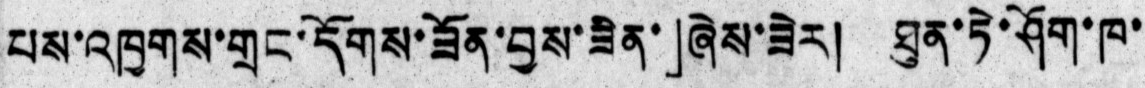པས་འཁྱགས་གྲང་དོགས་ཟོན་བྱས་ཟིན་」ཞེས་ཟེར།  ཐུན་ཏེ་ཤོག་ཁ་
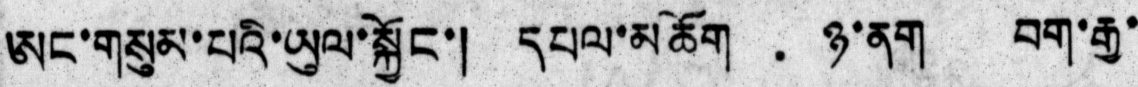ཨང་གསུམ་པའི་ཡུལ་སྐྱོང་།  དཔལ་མཆོག  ཉ་ནག  བག་རྒྱ་
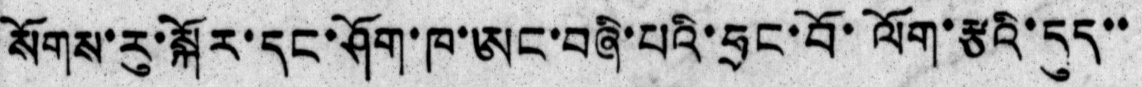སོགས་རུ་སྐོར་དང་ཤོག་ཁ་ཨང་བཞི་པའི་ཧྲང་བོ་ལོག་རྩའི་དུད་་
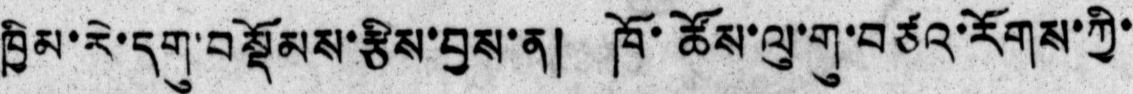ཁྱིམ་རེ་དགུ་བསྡོམས་རྩིས་བྱས་ན།  ཁོ་ཚོས་ལུ་གུ་བཙའ་རོགས་ཀྱི་
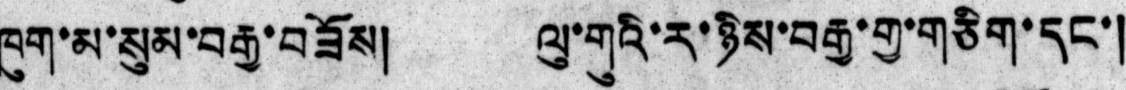ཁུག་མ་སུམ་བརྒྱ་བཟོས།  ལུ་གུའི་ར་ཉིས་བརྒྱ་གྱ་གཅིག་དང་།
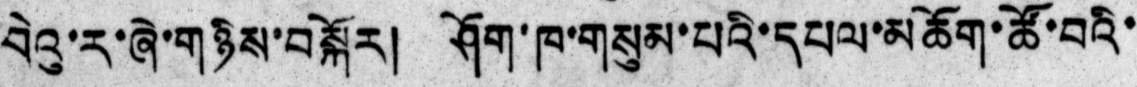བེའུ་ར་ཞེ་གཉིས་བསྐོར།  ཤོག་ཁ་གསུམ་པའི་དཔལ་མཆོག་ཚོ་བའི་
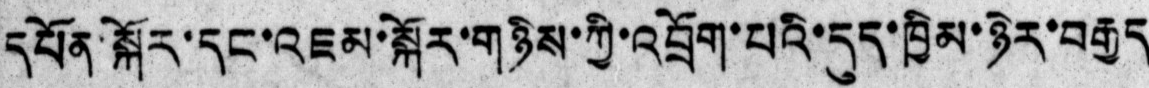དཔོན་སྐོར་དང་འཇམ་སྐོར་གཉིས་ཀྱི་འབྲོག་པའི་དུད་ཁྱིམ་ཉེར་བརྒྱད
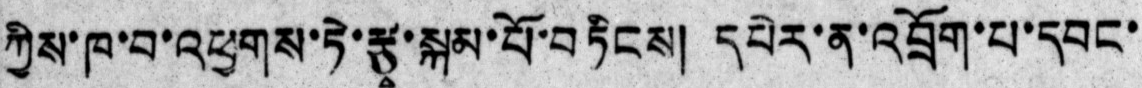ཀྱིས་ཁ་བ་འཕྱགས་ཏེ་རྩྭ་སྐམ་པོ་བཏིངས།  དཔེར་ན་འབྲོག་པ་དབང་
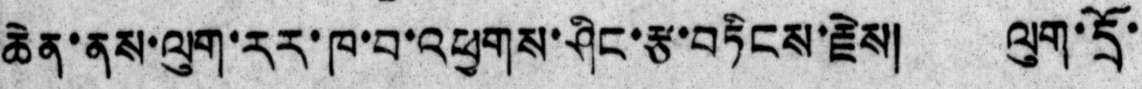ཆེན་ནས་ལུག་རར་ཁ་བ་འཕྱགས་ཤིང་རྩ་བཏིངས་རྗེས།  ལུག་དྲོ་
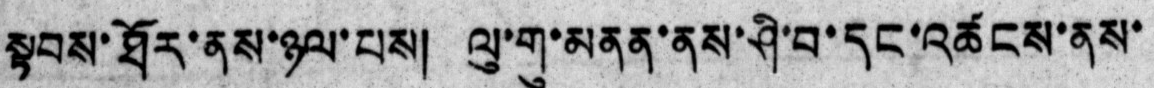སྟབས་ཐོར་ནས་ཉལ་པས།  ལུ་གུ་མནན་ནས་ཤི་བ་དང་འཚངས་ནས་
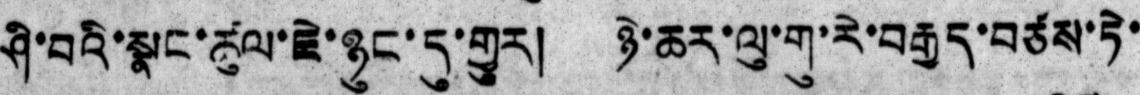ཤི་བའི་སྣང་ཚུལ་ཇེ་ཉུང་དུ་གྱུར།  ཉེ་ཆར་ལུ་གུ་རེ་བརྒྱད་བཙས་ཏེ་
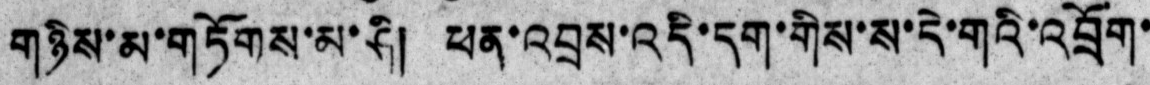གཉིས་མ་གཏོགས་མ་ཤི།  ཕན་འབྲས་འདི་དག་གིས་ས་དེ་གའི་འབྲོག་
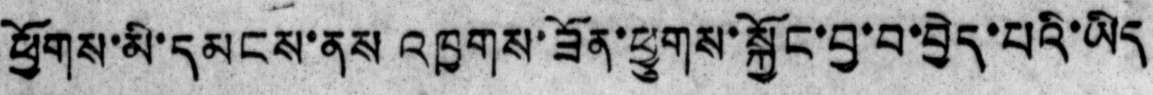ཕྱོགས་མི་དམངས་ནས་འཁྱགས་ཟོན་ཕྱུགས་སྐྱོང་བྱ་བ་བྱེད་པའི་ཡིད
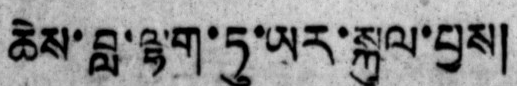ཆེས་བླ་ལྷག་ཏུ་ཡར་སྐུལ་བྱས།
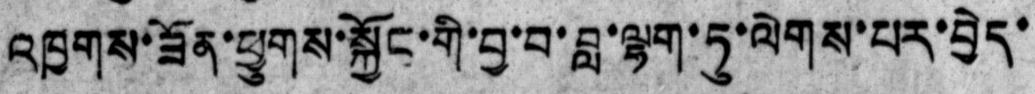འཁྱགས་ཟོན་ཕྱུགས་སྐྱོང་གི་བྱ་བ་བླ་ལྷག་ཏུ་ལེགས་པར་བྱེད་
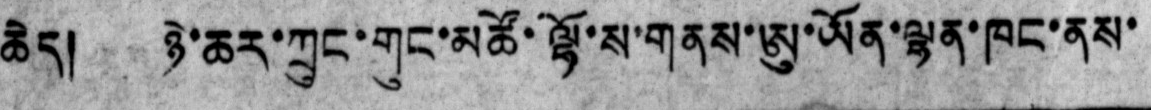ཆེད། ཉེ་ཆར་ཀྲུང་གུང་མཚོ་ལྷོ་ས་གནས་ཨུ་ཡོན་ལྷན་ཁང་ནས་
